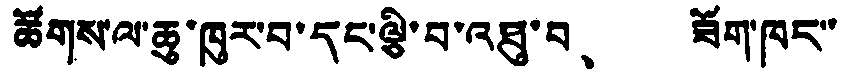ཚོགས་ལ་ཆུ་ཁུར་བ་དང་ལྕི་བ་འཐུ་བ、 ཟོག་ཁང་་
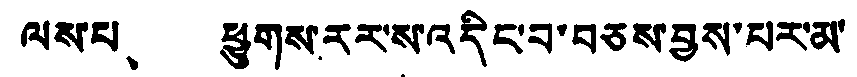ལས་པ、 ཕྱུགས་རར་ས་འདིང་བ་བཅས་བྱས་པར་མ་
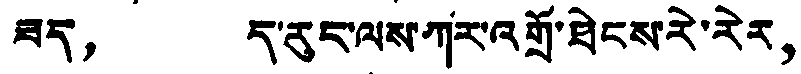ཟད， ད་རུང་ལས་ཀར་འགྲོ་ཐེངས་རེ་རེར，
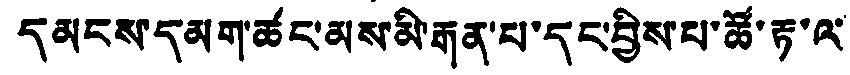དམངས་དམག་ཚང་མས་མི་རྒན་པ་དང་བྱིས་པ་ཚོ་རྟ་ལ་
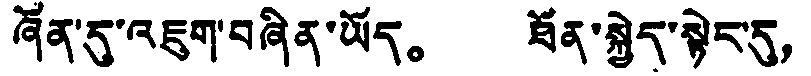ཞོན་དུ་འཇུག་བཞིན་ཡོད。 ཐོན་སྐྱེད་སྟེང་དུ，
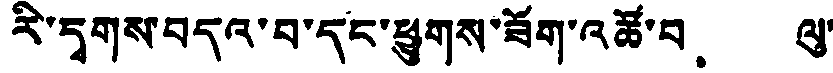རི་དྭགས་བདའ་བ་དང་ཕྱུགས་ཟོག་འཚོ་བ、 ལུ་
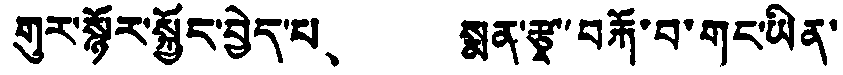གུར་སྙོར་སྐྱོང་བྱེད་པ、 སྨན་རྩྭ་བརྐོ་བ་གང་ཡིན་
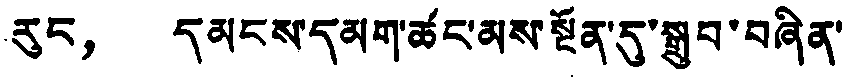རུང， དམངས་དམག་ཚང་མས་སྔོན་དུ་སྒྲུབ་བཞིན་
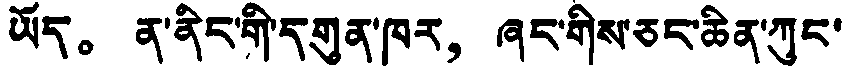ཡོད。 ན་ནིང་གི་དགུན་ཁར， ཞང་གིས་ཅང་ཆིན་ཀུང་
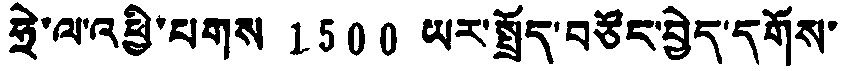ཧྲེ་ལ་འཕྱི་པགས 1500 ཡར་སྤྲོད་བཙོང་བྱེད་དགོས་
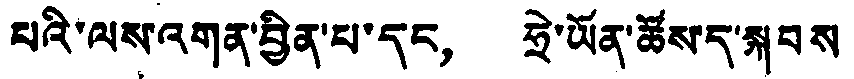པའི་ལས་འགན་བྱིན་པ་དང， ཧྲེ་ཡོན་ཚོས་ད་སྐབས།
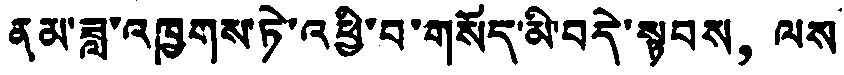ནམ་ཟླ་འཁྱགས་ཏེ་འཕྱི་བ་གསོད་མི་བདེ་སྟབས， ལས
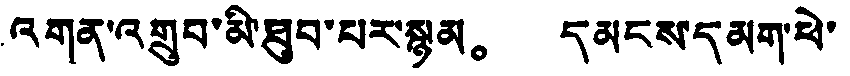འགན་འགྲུབ་མི་ཐུབ་པར་སྙམ。 དམངས་དམག་ཕེ་
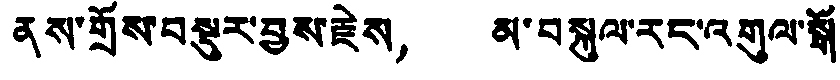ནས་གྲོས་བསྡུར་བྱས་རྗེས， མ་བསྐུལ་རང་འགུལ་སྒོ་
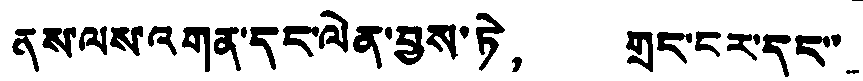ནས་ལས་འགན་དང་ལེན་བྱས་ཏེ， གྲང་ངར་དང་་
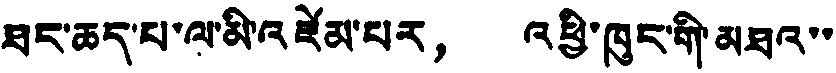ཐད་ཆད་པ་ལ་མི་འཛེམ་པར， འཕྱི་ཁུང་གི་མཐའ་་
